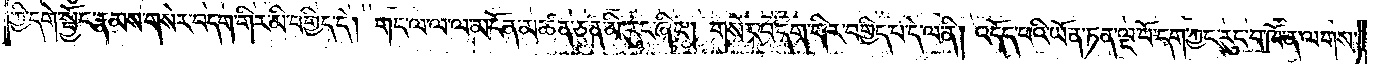ཀྱི་དགེ་སྦྱོང་རྣམས་གསེར་བདག་གིར་མི་བགྱིད་དེ། གང་ལ་ལ་ལ་མངོན་མཚན་ཅན་མི་རུང་ཞིང༌། གསེར་བདག་གིར་བགྱིད་པ་དེ་ལ་ནི། འདོད་པའི་ཡོན་ཏན་ལྔ་པོ་དག་ཀྱང་རུང་བ་ཁོ་ན་ལགས་
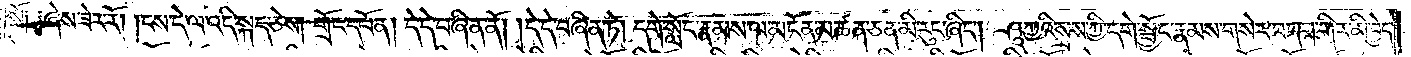སོ༑ ༑ཞེས་ཟེར་རོ། །ངས་དེ་ལ་འདི་སྐད་ཅེས། གྲོང་དཔོན། དེ་དེ་བཞིན་ནོ། །དེ་དེ་བཞིན་ཏེ། དགེ་སློང་རྣམས་ལ་མངོན་མཚན་ཅན་མི་རུང་ཞིང༌། ཤཱཀྱའི་སྲས་ཀྱི་དགེ་སྦྱོང་རྣམས་གསེར་བདག་གིར་མི་བྱེད་
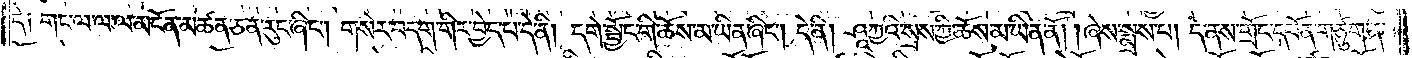དེ༑ གང་ལ་ལ་ལ་མངོན་མཚན་ཅན་རུང་ཞིང༌། གསེར་བདག་གིར་བྱེད་པ་དེ་ནི། དགེ་སྦྱོང་གི་ཆོས་མ་ཡིན་ཞིང༌། དེ་ནི། ཤཱཀྱའི་སྲས་ཀྱི་ཆོས་མ་ཡིན་ནོ། །ཞེས་སྨྲས་པ། དེ་ནས་གྲོང་དཔོན་གཙུག་ན་
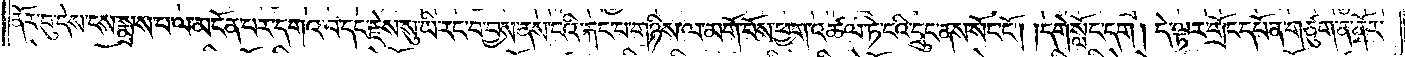ནོར་བུ་དེས་ངས་སྨྲས་པ་ལ་མངོན་པར་དགའ་བ་དང་རྗེས་སུ་ཡི་རང་བ་བྱས་ནས་ངའི་རྐང་པ་གཉིས་ལ་མགོ་བོས་ཕྱག་འཚལ་ཏེ་ངའི་དྲུང་ནས་སོང་ངོ༌། །དགེ་སློང་དག། དེ་ལྟར་གྲོང་དཔོན་གཙུག་ན་ནོར་
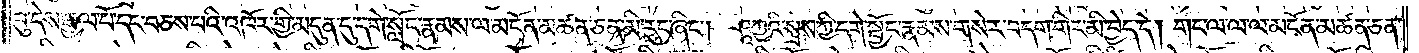བུ་དེས་རྒྱལ་པོ་དང་བཅས་པའི་འཁོར་གྱི་མདུན་དུ་དགེ་སློང་རྣམས་ལ་མངོན་མཚན་ཅན་མི་རུང་ཞིང༌། ཤཱཀྱའི་སྲས་ཀྱི་དགེ་སྦྱོང་རྣམས་གསེར་བདག་གིར་མི་བྱེད་དེ། གང་ལ་ལ་ལ་མངོན་མཚན་ཅན་
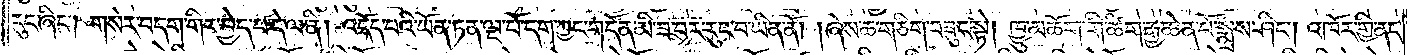རུང་ཞིང༌། གསེར་བདག་གིར་བྱེད་པ་དེ་ལ་ནི། འདོད་པའི་ཡོན་ཏན་ལྔ་པོ་དག་ཀྱང་གདོན་མི་ཟ་བར་རུང་བ་ཡིན་ནོ། །ཞེས་ཆ་གཅིག་བཟུང་སྟེ། ཁྱུ་མཆོག་གི་ཚིག་རྒྱ་ཆེན་པོ་སྨྲས་ཤིང༌། འཁོར་གྱི་ནང་
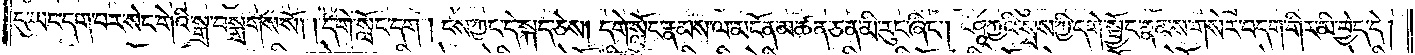དུ་ཡང་དག་པར་སེང་གེའི་སྒྲ་བསྒྲགས་སོ། །དགེ་སློང་དག། ངས་ཀྱང་དེ་སྐད་ཅེས། དགེ་སློང་རྣམས་ལ་མངོན་མཚན་ཅན་མི་རུང་ཞིང༌། ཤཱཀྱའི་སྲས་ཀྱི་དགེ་སྦྱོང་རྣམས་གསེར་བདག་གིར་མི་བྱེད་དེ།
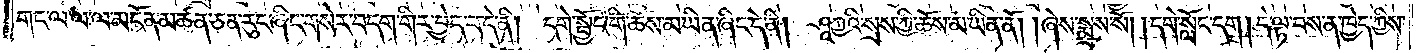གང་ལ་ལ་ལ་མངོན་མཚན་ཅན་རུང་ཞིང་གསེར་བདག་གིར་བྱེད་པ་དེ་ནི། དགེ་སྦྱོང་གི་ཆོས་མ་ཡིན་ཞིང་དེ་ནི། ཤཱཀྱའི་སྲས་ཀྱི་ཆོས་མ་ཡིན་ནོ། །ཞེས་སྨྲས་སོ། །དགེ་སློང་དག། དེ་ལྟ་བས་ན་ཁྱེད་ཀྱིས་
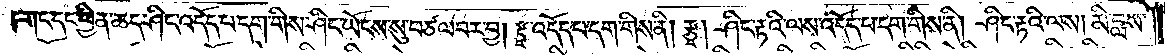གང་དང་ཕྱིན་ཆད་ཤིང་འདོད་པ་དག་གིས་ཤིང་ཡོངས་སུ་བཙལ་བར་བྱ། རྩྭ་འདོད་པ་དག་གིས་ནི། རྩྭ། ཤིང་རྟའི་ལས་འདོད་པ་དག་གིས་ནི། ཤིང་རྟའི་ལས། མི་བླས་
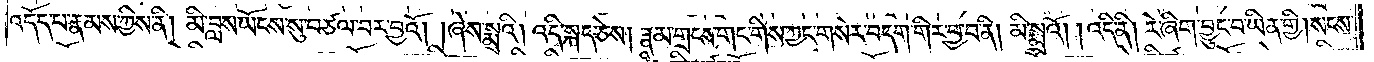འདོད་པ་རྣམས་ཀྱིས་ནི། མི་བླས་ཡོངས་སུ་བཙལ་བར་བྱའོ། །ཞེས་སྨྲའི། འདི་སྐད་ཅེས། རྣམ་གྲངས་གང་གིས་ཀྱང་གསེར་བདག་གིར་བྱ་བ་ནི། མི་སྨྲའོ། །འདི་ནི། རེ་ཞིག་བྱུང་བ་ཡིན་གྱི། སངས་
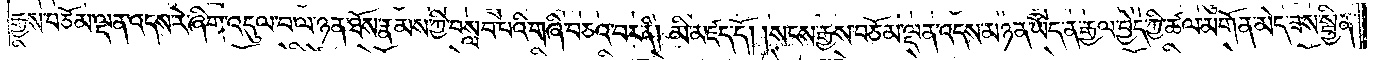རྒྱས་བཅོམ་ལྡན་འདས་རེ་ཞིག་འདུལ་བ་ལ་ཉན་ཐོས་རྣམས་ཀྱི་བསླབ་པའི་གཞི་བཅའ་བར་ནི། མི་མཛད་དོ། །སངས་རྒྱས་བཅོམ་ལྡན་འདས་མཉན་ཡོད་ན་རྒྱལ་བྱེད་ཀྱི་ཚལ་མགོན་མེད་ཟས་སྦྱིན་
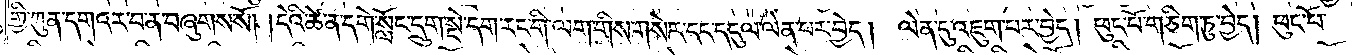གྱི་ཀུན་དགའ་ར་བ་ན་བཞུགས་སོ། །དེའི་ཚེ་ན་དགེ་སློང་དྲུག་སྡེ་དག་རང་གི་ལག་གིས་གསེར་དང་དངུལ་ལེན་པར་བྱེད། ལེན་དུ་འཇུག་པར་བྱེད། ཕུང་པོ་གཅིག་ཏུ་བྱེད། ཕུང་པོ་
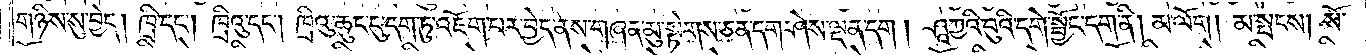གཉིས་སུ་བྱེད། ཁྲི་དང༌། ཁྲིའུ་དང༌། ཁྲིའུ་ཆུང་ངུ་དག་ཏུ་འཇོག་པར་བྱེད་ནས་གཞན་མུ་སྟེགས་ཅན་དག་ཤེས་ལྡན་དག། ཤཱཀྱའི་བུའི་དགེ་སྦྱོང་དག་ནི། མ་ལོག །མ་སྤངས། སོ་
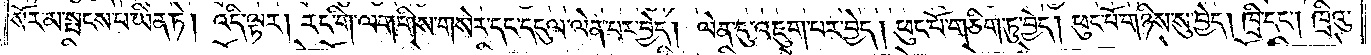སོར་མ་སྤངས་པ་ཡིན་ཏེ། འདི་ལྟར། རང་གི་ལག་གིས་གསེར་དང་དངུལ་ལེན་པར་བྱེད། ལེན་དུ་འཇུག་པར་བྱེད། ཕུང་པོ་གཅིག་ཏུ་བྱེད། ཕུང་པོ་གཉིས་སུ་བྱེད། ཁྲི་དང༌། ཁྲིའུ་
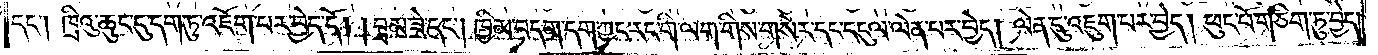དང༌། ཁྲིའུ་ཆུང་དུ་དག་ཏུ་འཇོག་པར་བྱེད་དོ། །བྲམ་ཟེ་དང༌། ཁྱིམ་བདག་དག་ཀྱང་རང་གི་ལག་གིས་གསེར་དང་དངུལ་ལེན་པར་བྱེད། ལེན་དུ་འཇུག་པར་བྱེད། ཕུང་པོ་གཅིག་ཏུ་བྱེད་
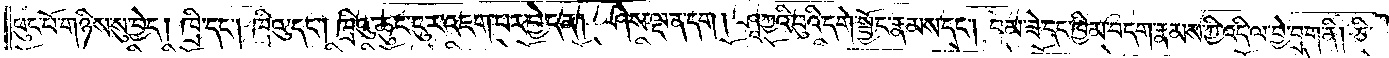ཕུང་པོ་གཉིས་སུ་བྱེད། ཁྲི་དང༌། ཁྲིའུ་དང༌། ཁྲིའུ་ཆུང་ངུར་འཇུག་པར་བྱེད་ན། ཤེས་ལྡན་དག། ཤཱཀྱའི་བུའི་དགེ་སྦྱོང་རྣམས་དང༌། བྲམ་ཟེ་དང་ཁྱིམ་བདག་རྣམས་ཀྱི་འདི་ལ་བྱེ་བྲག་ནི། ཅི་
